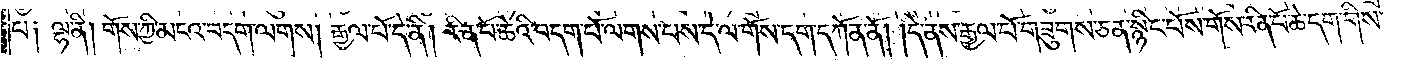པ༑ ལྷ། གོས་ཀྱི་མངའ་བདག་ལགས། རྒྱལ་པོ་དེ་ནི། རིན་པོ་ཆེའི་བདག་པོ་ལགས་པས་དེ་ལ་གོས་དག་དཀོན་ནོ། །དེ་ནས་རྒྱལ་པོ་གཟུགས་ཅན་སྙིང་པོས་གོས་རིན་པོ་ཆེ་དག་གིས་
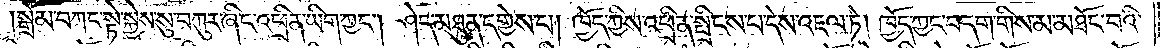སྒྲོམ་བཀང་སྟེ་སྐྱེས་སུ་བཀུར་ཞིང་འཕྲིན་ཡིག་ཀྱང༌། ཤེད་མཐུན་དགྱེས་པ། ཁྱོད་ཀྱིས་འཕྲིན་སྤྲིངས་པ་དེས་འཇལ་ཏེ། ཁྱོད་ཀྱང་བདག་གིས་མ་མཐོང་བའི་
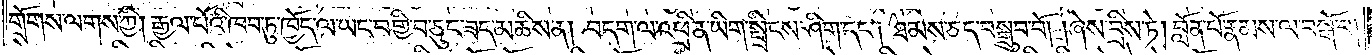གྲོགས་ལགས་ཀྱི། རྒྱལ་པོའི་ཁབ་ཏུ་ཁྱོད་ལ་ཡང་བགྱི་བ་ཅུང་ཟད་མཆིས་ན། བདག་ལ་འཕྲིན་ཡིག་སྤྲིངས་ཤིག་དང༌། ཐམས་ཅད་བསྒྲུབ་བོ། །ཞེས་བྲིས་ཏེ། བློན་པོ་རྣམས་ལ་བསྒོ་བ།
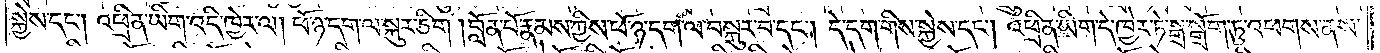སྐྱེས་དང༌། འཕྲིན་ཡིག་འདི་ཁྱེར་ལ། ཕོ་ཉ་དག་ལ་སྐུར་ཅིག །བློན་པོ་རྣམས་ཀྱིས་ཕོ་ཉ་དག་ལ་བསྐུར་བ་དང༌། དེ་དག་གིས་སྐྱེས་དང༌། འཕྲིན་ཡིག་དེ་ཁྱེར་ཏེ་སྒྲ་སྒྲོག་ཏུ་འཕགས་ནས་
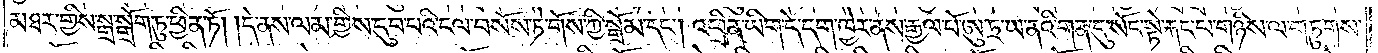མཐར་གྱིས་སྒྲ་སྒྲོག་ཏུ་ཕྱིན་ཏོ། །དེ་ནས་ལམ་གྱིས་དུབ་པའི་ངལ་བསོས་ཏེ་གོས་ཀྱི་སྒྲོམ་དང༌། འཕྲིན་ཡིག་དེ་དག་ཁྱེར་ནས་རྒྱལ་པོ་ཨུ་ཏྲ་ཡ་ནའི་གན་དུ་སོང་སྟེ་རྐང་པ་གཉིས་ལ་གཏུགས་
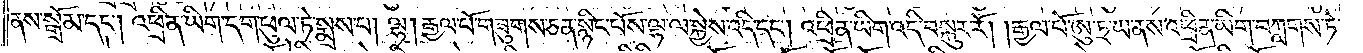ནས་སྒྲོམ་དང༌། འཕྲིན་ཡིག་དག་ཕུལ་ཏེ་སྨྲས་པ། ལྷ། རྒྱལ་པོ་གཟུགས་ཅན་སྙིང་པོས་ལྷ་ལ་སྐྱེས་འདི་དང༌། འཕྲིན་ཡིག་འདི་བསྐུར་རོ། །རྒྱལ་པོ་ཨུ་ཏྲ་ཡ་ནས་འཕྲིན་ཡིག་བཀླགས་ཏེ་
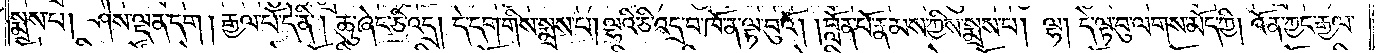སྨྲས་པ། ཤེས་ལྡན་དག །རྒྱལ་པོ་དེ་ནི། ཆུ་ཞེང་ཅི་འདྲ། དེ་དག་གིས་སྨྲས་པ། ལྷའི་ཅི་འདྲ་བ་ཁོ་ན་ལྟ་བུའོ། །བློན་པོ་རྣམས་ཀྱིས་སྨྲས་པ། ལྷ། དེ་ལྟ་བུ་ལགས་མོད་ཀྱི། འོན་ཀྱང་རྒྱལ་
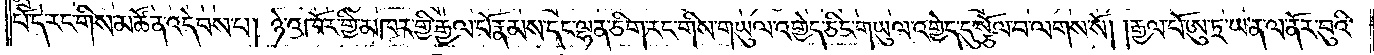པོ་དེ་རང་གིས་མཚོན་འདེབས་པ། ཉེ་འཁོར་གྱི་མཁར་གྱི་རྒྱལ་པོ་རྣམས་དང་ལྷན་ཅིག་རང་གིས་གཡུལ་འགྱེད་ཅིང་གཡུལ་འགྱེད་དུ་སྩོལ་བ་ལགས་སོ། །རྒྱལ་པོ་ཨུ་ཏྲ་ཡ་ན་ལ་ནོར་བུའི་
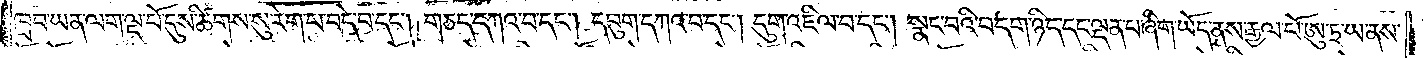ཁྲབ་ཡན་ལག་ལྔ་པོ་དུས་ཚིགས་སུ་རེག་པ་བདེ་བ་དང༌། གཅད་དཀའ་བ་དང༌། དབུག་དཀའ་བ་དང༌། དུག་འཇིལ་བ་དང༌། སྣང་བའི་བདག་ཉིད་དང་ལྡན་པ་ཞིག་ཡོད་ནས་རྒྱལ་པོ་ཨུ་ཏྲ་ཡ་ནས་
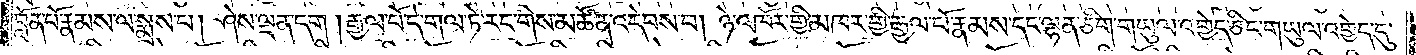བློན་པོ་རྣམས་ལ་སྨྲས་པ། ཤེས་ལྡན་དང༌། རྒྱལ་པོ་དེ་གལ་ཏེ་རང་གིས་མཚོན་འདེབས་པ། ཉེ་འཁོར་གྱི་མཁར་གྱི་རྒྱལ་པོ་རྣམས་དང་ལྷན་ཅིག་གཡུལ་འགྱེད་ཅིང་གཡུལ་འགྱེད་དུ་
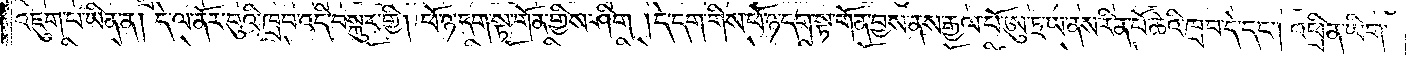འཇུག་པ་ཡིན་ན། དེ་ལ་ནོར་བུའི་ཁྲབ་འདི་བསྐུར་གྱི། ཕོ་ཉ་དག་སྟ་གོན་གྱིས་ཤིག །དེ་དག་གིས་ཕོ་ཉ་དག་སྟ་གོན་བྱས་ནས་རྒྱལ་པོ་ཨུ་ཏྲ་ཡ་ནས་རིན་པོ་ཆེའི་ཁྲབ་དེ་དང༌། འཕྲིན་ཡིག་
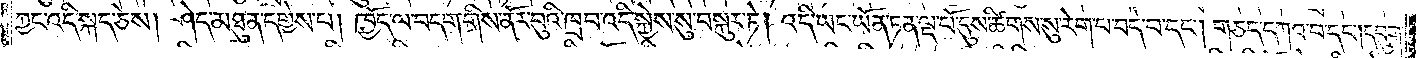ཀྱང་འདི་སྐད་ཅེས། ཤེད་མཐུན་དགྱེས་པ། ཁྱོད་ལ་བདག་གིས་ནོར་བུའི་ཁྲབ་འདི་སྐྱེས་སུ་བསྐུར་ཏེ། འདི་ཡང་ཡོན་ཏན་ལྔ་པོ་དུས་ཚིགས་སུ་རེག་པ་བདེ་བ་དང༌། གཅད་དཀའ་བ་དང༌། དབུག་
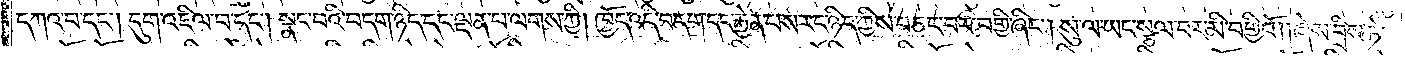དཀའ་བ་དང༌། དུག་འཇིལ་བ་དང༌། སྣང་བའི་བདག་ཉིད་དང་ལྡན་པ་ལགས་ཀྱི། ཁྱོད་འདི་བདག་དང་རྐྱེན་པས་རང་ཉིད་ཀྱིས་བཅང་བར་བགྱི་ཞིང༌། སུ་ལ་ཡང་སྩལ་བར་མི་བགྱིའོ། །ཞེས་བྲིས་ཏེ་
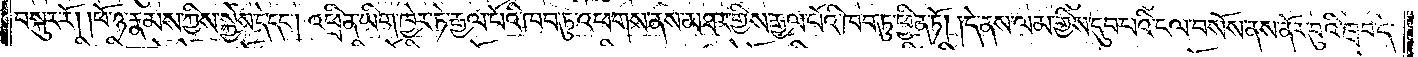བསྐུར་རོ། །ཕོ་ཉ་རྣམས་ཀྱིས་སྐྱེས་དེ་དང༌། འཕྲིན་ཡིག་ཁྱེར་ཏེ་རྒྱལ་པོའི་ཁབ་ཏུ་འཕགས་ནས་མཐར་གྱིས་རྒྱལ་པོའི་ཁབ་ཏུ་ཕྱིན་ཏོ། །དེ་ནས་ལམ་གྱིས་དུབ་པའི་ངལ་བསོས་ནས་ནོར་བུའི་ཁྲབ་དེ་
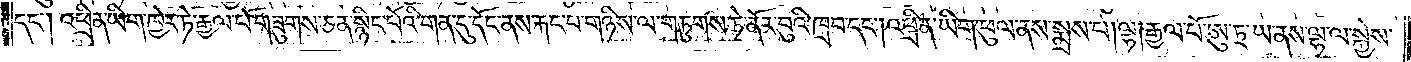དང༌། འཕྲིན་ཡིག་ཁྱེར་ཏེ་རྒྱལ་པོ་གཟུགས་ཅན་སྙིང་པོའི་གན་དུ་དོང་ནས་རྐང་པ་གཉིས་ལ་གཏུགས་ཏེ་ནོར་བུའི་ཁྲབ་དང༌། འཕྲིན་ཡིག་ཕུལ་ནས་སྨྲས་པ། རྒྱལ་པོ་ཨུ་ཏྲ་ཡ་ནས་ལྷ་ལ་སྐྱེས་
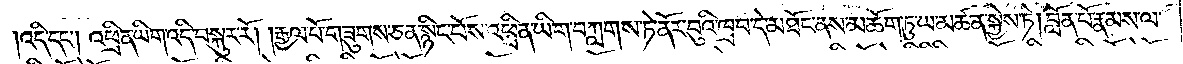འདི་དང༌། འཕྲིན་ཡིག་འདི་བསྐུར་རོ། །རྒྱལ་པོ་གཟུགས་ཅན་སྙིང་པོས་འཕྲིན་ཡིག་བཀླགས་ཏེ་ནོར་བུའི་ཁྲབ་དེ་མཐོང་ནས་མཆོག་ཏུ་ཡ་མཚན་སྐྱེས་ཏེ། བློན་པོ་རྣམས་ལ་
